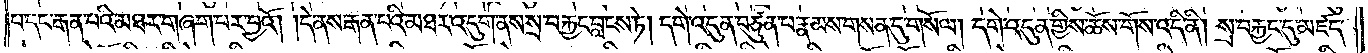པ་དང་རྒན་པའི་མཐར་གཞག་པར་བྱའོ། །དེ་ནས་རྒན་པའི་མཐར་འདུག་ནས་སྲ་བརྐྱང་བླངས་ཏེ། དགེ་འདུན་བཙུན་པ་རྣམས་གསན་དུ་གསོལ། དགེ་འདུན་གྱིས་ཆོས་གོས་འདི་ནི། སྲ་བརྐྱང་དུ་མཛད་
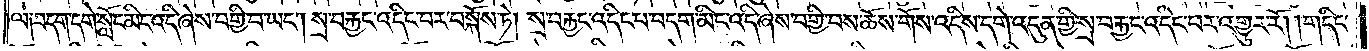ལ༑ བདག་དགེ་སློང་མིང་འདི་ཞེས་བགྱི་བ་ཡང༌། སྲ་བརྐྱང་འདིང་བར་བསྐོས་ཏེ། སྲ་བརྐྱང་འདིང་པ་བདག་མིང་འདི་ཞེས་བགྱི་བས་ཆོས་གོས་འདིས་དགེ་འདུན་གྱི་སྲ་བརྐྱང་འདིང་བར་འགྱུར་རོ། །གདིང་
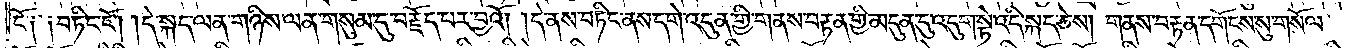ངོ༑ ༑བཏིང་ངོ༌། །དེ་སྐད་ལན་གཉིས་ལན་གསུམ་དུ་བརྗོད་པར་བྱའོ། །དེ་ནས་བཏིང་ནས་དགེ་འདུན་གྱི་གནས་བརྟན་གྱི་མདུན་དུ་འདུག་སྟེ་འདི་སྐད་ཅེས། །གནས་བརྟན་དགོངས་སུ་གསོལ་
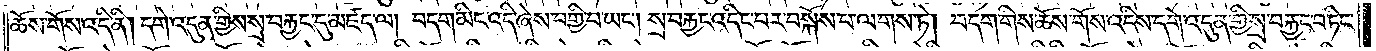ཆོས་གོས་འདི་ནི། དགེ་འདུན་གྱིས་སྲས་བརྐྱང་དུ་མཛད་ལ། བདག་མིང་འདི་ཞེས་བགྱི་བ་ཡང༌། སྲ་བརྐྱང་འདིང་བར་བསྐོས་པ་ལགས་ཏེ། བདག་གིས་ཆོས་གོས་འདིས་དགེ་འདུན་གྱི་སྲ་བརྐྱང་བཏིང་
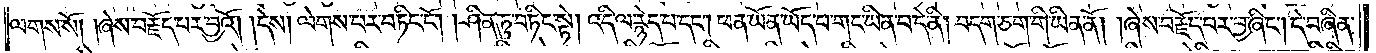ལགས་སོ། །ཞེས་བརྗོད་པར་བྱའོ། །དེས། ལེགས་པར་བཏིང་ངོ༌། །ཤིན་ཏུ་བཏིང་སྟེ། འདི་ལ་རྙེད་པ་དང༌། ཕན་ཡོན་ཡོད་པ་གང་ཡིན་པ་དེ་ནི། བདག་ཅག་གི་ཡིན་ནོ། །ཞེས་བརྗོད་པར་བྱ་ཞིང༌། དེ་བཞིན་
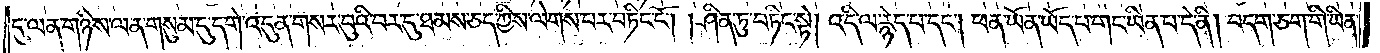དུ་ལན་གཉིས་ལན་གསུམ་དུ་དགེ་འདུན་གསར་བུའི་བར་དུ་ཐམས་ཅད་ཀྱིས་ལེགས་པར་བཏིང་ངོ༌། །ཤིན་ཏུ་བཏིང་སྟེ། འདི་ལ་རྙེད་པ་དང༌། ཕན་ཡོན་ཡོད་པ་གང་ཡིན་པ་དེ་ནི། བདག་ཅག་གི་ཡིན་
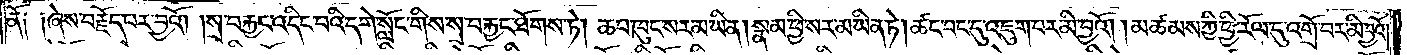ནོ༑ ༑ཞེས་བརྗོད་པར་བྱའོ། །སྲ་བརྐྱང་འདིང་བའི་དགེ་སློང་གིས་སྲ་བརྐྱང་ཐོགས་ཏེ། ཆབ་ཁུང་སར་མ་ཡིན། སྣམ་ཕྱི་སར་མ་ཡིན་ཏེ། ཚང་བང་དུ་འཇུག་པར་མི་བྱའོ། །མཚམས་ཀྱི་ཕྱི་རོལ་དུ་འགྲོ་བར་མི་བྱའོ་
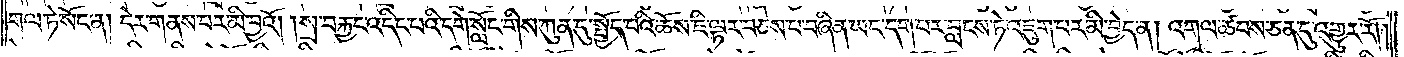གལ་ཏེ་སོང་ན། དེར་གནས་པར་མི་བྱའོ། །སྲ་བརྐྱང་འདིང་བའི་དགེ་སློང་གིས་ཀུན་ཏུ་སྤྱོད་པའི་ཆོས་ཇི་ལྟར་བཅས་པ་བཞིན་ཡང་དག་པར་བླངས་ཏེ་འཇུག་པར་མི་བྱེད་ན། འགལ་ཚ་བས་ཅན་དུ་འགྱུར་རོ། །
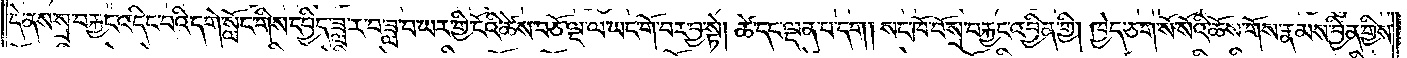དེ་ནས་སྲ་བརྐྱང་འདིང་བའི་དགེ་སློང་གིས་དཔྱིད་ཟླ་ར་བ་ཟླ་བ་ཡར་གྱི་ངོའི་ཚེས་བཅོ་ལྔ་ལ་ཡང་གོ་བར་བྱ་སྟེ། ཚེ་དང་ལྡན་པ་དག །སང་ཁོ་བོ་སྲ་བརྐྱང་འབྱིན་གྱི། ཁྱེད་ཅག་སོ་སོའི་ཆོས་གོས་རྣམས་བྱིན་གྱིས་
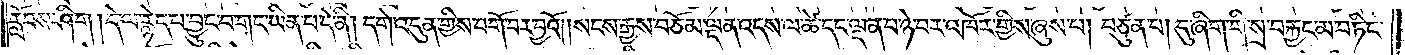རློབས་ཤིག །དེ་ལ་རྙེད་པ་བྱུང་བ་གང་ཡིན་པ་དེ་ནི། དགེ་འདུན་གྱིས་བགོ་བར་བྱའོ། །སངས་རྒྱས་བཅོམ་ལྡན་འདས་ལ་ཚེ་དང་ལྡན་པ་ཉེ་བར་འཁོར་གྱིས་ཞུས་པ། བཙུན་པ། དུ་ཞིག་གི་སྲ་བརྐྱང་མ་བཏིང་
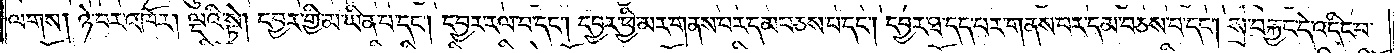ལགས། ཉེ་བར་འཁོར། ལྔའི་སྟེ། དབྱར་གྱི་མ་ཡིན་པ་དང༌། དབྱར་རལ་བ་དང༌། དབྱར་ཕྱི་མར་གནས་པར་དམ་བཅས་པ་དང༌། དབྱར་ཐ་དད་པར་གནས་པར་དམ་བཅས་པ་དང༌། སྲ་བརྐྱང་དེ་འདིང་བ་
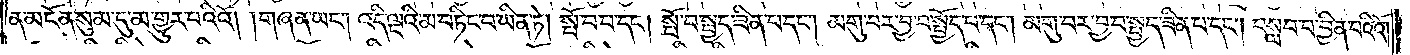ན་མངོན་སུམ་དུ་མ་གྱུར་པའིའོ། །གཞན་ཡང༌། འདི་ལྔའི་མ་བཏིང་བ་ཡིན་ཏེ། སྤོ་བ་པ་དང༌། སྤོ་བ་སྤྱད་ཟིན་པ་དང༌། མགུ་བར་བྱ་བ་སྤྱོད་པ་དང༌། མགུ་བར་བྱ་བ་སྤྱད་ཟིན་པ་དང༌། བསླབ་པ་བྱིན་པའིའོ། །
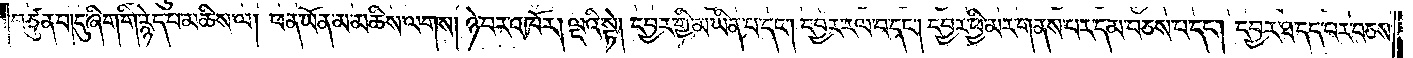བཙུན་པ། དུ་ཞིག་གི་རྙེད་པ་མཆིས་ལ། ཕན་ཡོན་མ་མཆིས་ལགས། ཉེ་བར་འཁོར། ལྔའི་སྟེ། དབྱར་གྱི་མ་ཡིན་པ་དང༌། དབྱར་རལ་བ་དང༌། དབྱར་ཕྱི་མར་གནས་པར་དམ་བཅས་པ་དང༌། དབྱར་ཐ་དད་པར་བཅས་
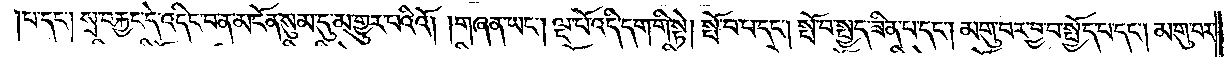པ་དང༌། སྲ་བརྐྱང་དེ་འདིང་བ་ན་མངོན་སུམ་དུ་མ་གྱུར་པའིའོ། །གཞན་ཡང༌། ལྔ་པོ་འདི་དག་གི་སྟེ། སྤོ་བ་པ་དང༌། སྤོ་བ་སྤྱད་ཟིན་པ་དང༌། མགུ་བར་བྱ་བ་སྤྱོད་པ་དང༌། མགུ་བར་
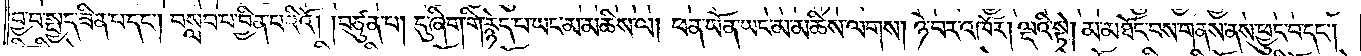བྱ་བ་སྤྱད་ཟིན་པ་དང༌། བསླབ་པ་བྱིན་པའིའོ། །བཙུན་པ། དུ་ཞིག་གི་རྙེད་པ་ཡང་མ་མཆིས་ལ། ཕན་ཡོན་ཡང་མ་མཆིས་ལགས། ཉེ་བར་འཁོར། ལྔའི་སྟེ། མ་མཐོང་བས་གནས་ནས་ཕྱུང་བ་དང༌།
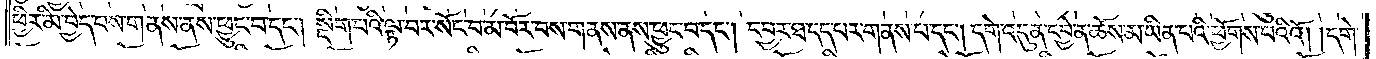ཕྱིར་མི་བྱེད་པས་གནས་ནས་ཕྱུང་བ་དང༌། སྡིག་པའི་ལྟ་བར་སོང་བ་མ་བོར་བས་གནས་ནས་ཕྱུང་བ་དང༌། དབྱར་ཐ་དད་པར་གནས་པ་དང༌། དགེ་འདུན་དབྱེ་ན་ཆོས་མ་ཡིན་པའི་ཕྱོགས་པའིའོ། །དགེ་
